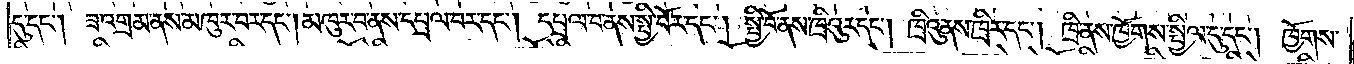དུ་དང༌། ཟ་འགྲམ་ནས་མཁུར་བར་དང༌། མཁུར་བ་ནས་དཔྲལ་བར་དང༌། དཔྲལ་བ་ནས་སྤྱི་བོར་དང༌། སྤྱི་བོ་ནས་ཁྲིའུར་དང༌། ཁྲིའུ་ནས་ཁྲིར་དང༌། ཁྲི་ནས་ཁྱོགས་སྤྱིལ་དུ་དང༌། ཁྱོགས་
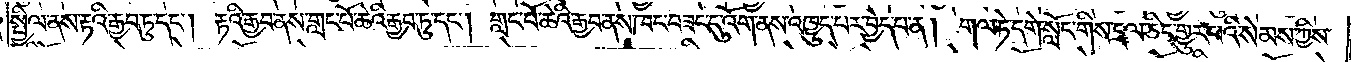སྤྱིལ་ནས་རྟའི་རྒྱབ་ཏུ་དང༌། རྟའི་རྒྱབ་ནས་གླང་པོ་ཆེའི་རྒྱབ་ཏུ་དང༌། གླང་པོ་ཆེའི་རྒྱབ་ནས་ཁང་བཟང་དུ་འོག་ནས་འཁྱུད་པར་བྱེད་པ་ན། གལ་ཏེ་དགེ་སློང་གིས་དྲལ་ཅིང་གྱུར་པའི་སེམས་ཀྱིས་
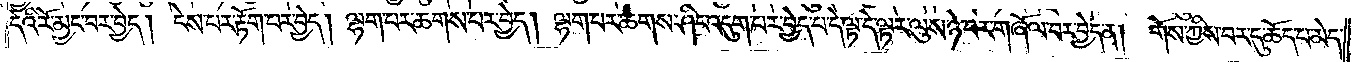དེའི་རོ་མྱང་བར་བྱེད། ངེས་པར་རྟོག་པར་བྱེད། ལྷག་པར་ཆགས་པར་བྱེད། ལྷག་པར་ཆགས་ཤིང་འདུག་པར་བྱེད་པ་དེ་ལྟ་དེ་ལྟར་ལུས་ཉེ་བར་གཞོལ་བར་བྱེད་ན། གོས་ཀྱིས་བར་དུ་ཆོད་པ་མེད་
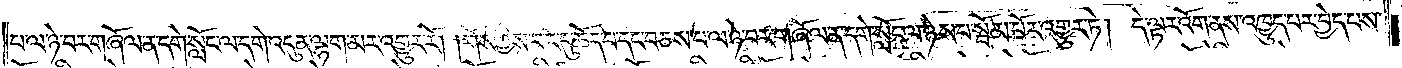པ་ལ་ཉེ་བར་གཞོལ་ན་དགེ་སློང་ལ་དགེ་འདུན་ལྷག་མར་འགྱུར་རོ། །གོས་ཀྱིས་བར་དུ་ཆོད་པ་དང་བཅས་པ་ལ་ཉེ་བར་གཞོལ་ན་དགེ་སློང་ལ་ཉེས་པ་སྦོམ་པོར་འགྱུར་ཏེ། དེ་ལྟར་འོག་ནས་འཁྱུད་པར་བྱེད་པས་
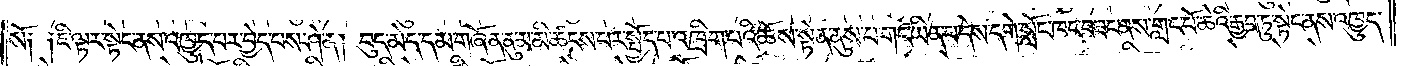སོ༑ ༑ཇི་ལྟར་སྟེང་ནས་འཁྱུད་པར་བྱེད་པས་ཤེ་ན། བུད་མེད་དམ་གཞོན་ནུ་མ་མི་ཚངས་པར་སྤྱོད་པ་འཁྲིག་པའི་ཆོས་སྟོན་ནུས་པ་གང་ཡིན་པ་དེས་དགེ་སློང་ཁང་བཟང་ནས་གླང་པོ་ཆེའི་རྒྱབ་ཏུ་སྟེང་ནས་འཁྱུད་
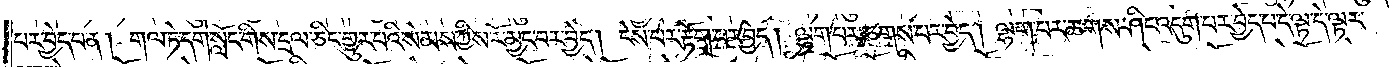པར་བྱེད་པ་ན། གལ་ཏེ་དགེ་སློང་གིས་དྲལ་ཅིང་གྱུར་པའི་སེམས་ཀྱིས་རོ་མྱང་བར་བྱེད། ངེས་པར་རྟོག་པར་བྱེད། ལྷག་པར་ཆགས་པར་བྱེད། ལྷག་པར་ཆགས་ཤིང་འདུག་པར་བྱེད་པ་དེ་ལྟ་དེ་ལྟར་
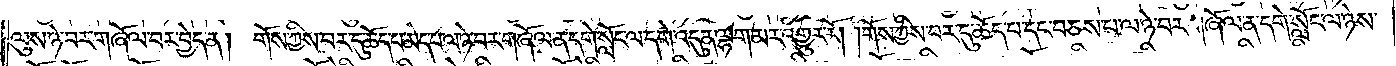ལུས་ཉེ་བར་གཞོལ་བར་བྱེད་ན། གོས་ཀྱིས་བར་དུ་ཆོད་པ་མེད་པ་ལ་ཉེ་བར་གཞོལ་ན་དགེ་སློང་ལ་དགེ་འདུན་ལྷག་མར་འགྱུར་རོ། །གོས་ཀྱིས་བར་དུ་ཆོད་པ་དང་བཅས་པ་ལ་ཉེ་བར་གཞོལ་ན་དགེ་སློང་ལ་ཉེས་
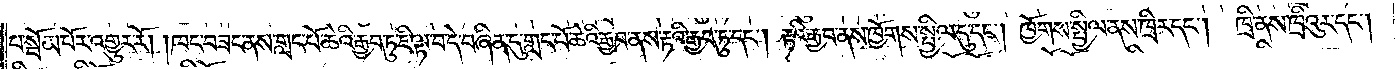པ་སྦོམ་པོར་འགྱུར་རོ། །ཁང་བཟང་ནས་གླང་པོ་ཆེའི་རྒྱབ་ཏུ་ཇི་ལྟ་བ་དེ་བཞིན་དུ་གླང་པོ་ཆེའི་རྒྱབ་ནས་རྟའི་རྒྱབ་ཏུ་དང༌། རྟའི་རྒྱབ་ནས་ཁྱོགས་སྤྱིལ་དུ་དང༌། ཁྱོགས་སྤྱིལ་ནས་ཁྲིར་དང༌། ཁྲི་ནས་ཁྲིའུར་དང༌།
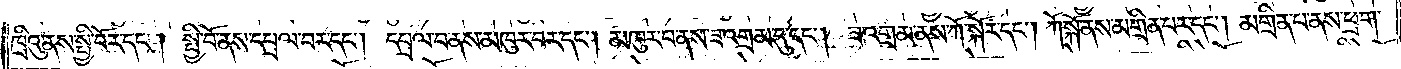ཁྲིའུ་ནས་སྤྱི་བོར་དང༌། སྤྱི་བོ་ནས་དཔྲལ་བར་དང༌། དཔྲལ་བ་ནས་མཁུར་བར་དང༌། མཁུར་བ་ནས་ཟ་འགྲམ་དུ་དང༌། ཟ་འགྲམ་ནས་ཀོ་སྐོར་དང༌། ཀོ་སྐོ་ནས་མགྲིན་པར་དང༌། མགྲིན་པ་ནས་ཕྲག་
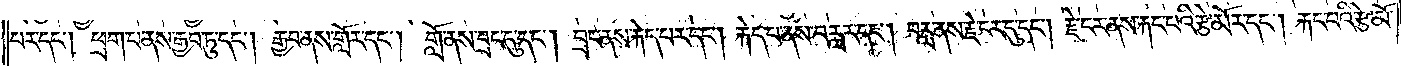པར་དང༌། ཕྲག་པ་ནས་རྒྱབ་ཏུ་དང༌། རྒྱབ་ནས་གློར་དང༌། གློ་ནས་བྲང་དུ་དང༌། བྲང་ནས་རྐེད་པར་དང༌། རྐེད་པ་ནས་བརླར་དང༌། བརླ་ནས་རྗེ་ངར་དུ་དང༌། རྗེ་ངར་ནས་རྐང་པའི་རྩེ་མོར་དང༌། རྐང་པའི་རྩེ་མོ་
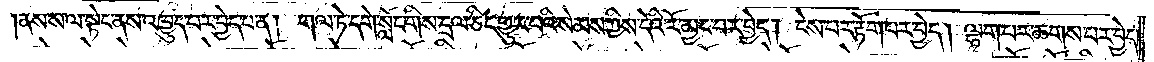།ནས་ས་ལ་སྟེང་ནས་འཁྱུད་པར་བྱེད་པ་ན། གལ་ཏེ་དགེ་སློང་གིས་དྲལ་ཅིང་གྱུར་པའི་སེམས་ཀྱིས་དེའི་རོ་མྱང་བར་བྱེད། ངེས་པར་རྟོག་པར་བྱེད། ལྷག་པར་ཆགས་པར་བྱེད༎
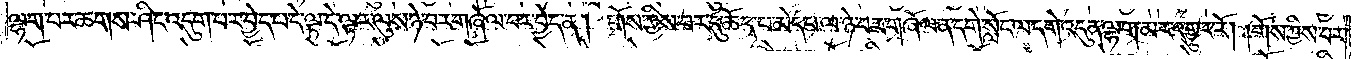ལྷག་པར་ཆགས་ཤིང་འདུག་པར་བྱེད་པ་དེ་ལྟ་དེ་ལྟར་ལུས་ཉེ་བར་གཞོལ་བར་བྱེད་ན། གོས་ཀྱིས་བར་དུ་ཆོད་པ་མེད་པ་ལ་ཉེ་བར་གཞོལ་ན་དགེ་སློང་ལ་དགེ་འདུན་ལྷག་མར་འགྱུར་རོ། །གོས་ཀྱིས་བར་
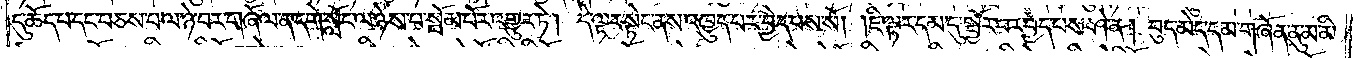དུ་ཆོད་པ་དང་བཅས་པ་ལ་ཉེ་བར་གཞོལ་ན་དགེ་སློང་ལ་ཉེས་པ་སྦོམ་པོར་འགྱུར་ཏེ། དེ་ལྟར་སྟེང་ནས་འཁྱུད་པར་བྱེད་པས་སོ། །ཇི་ལྟར་དམ་དུ་སྦྱོར་བར་བྱེད་པས་ཤེ་ན། བུད་མེད་དམ་གཞོན་ནུ་མ་མི་
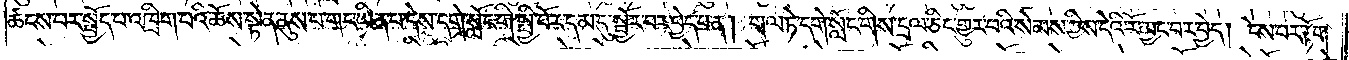ཚངས་པར་སྤྱོད་པ་འཁྲིག་པའི་ཆོས་སྟོན་ནུས་པ་གང་ཡིན་པ་དེས་དགེ་སློང་གི་སྤྱི་བོར་དམ་དུ་སྦྱོར་བར་བྱེད་པ་ན། གལ་ཏེ་དགེ་སློང་གིས་དྲལ་ཅིང་གྱུར་པའི་སེམས་ཀྱིས་དེའི་རོ་མྱང་བར་བྱེད། ངེས་པར་རྟོག་
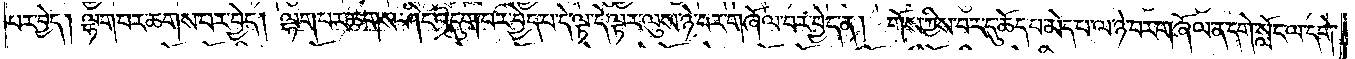པར་བྱེད། ལྷག་པར་ཆགས་པར་བྱེད། ལྷག་པར་ཆགས་ཤིང་འདུག་པར་བྱེད་པ་དེ་ལྟ་དེ་ལྟར་ལུས་ཉེ་བར་གཞོལ་བར་བྱེད་ན། གོས་ཀྱིས་བར་དུ་ཆོད་པ་མེད་པ་ལ་ཉེ་བར་གཞོལ་ན་དགེ་སློང་ལ་དགེ་
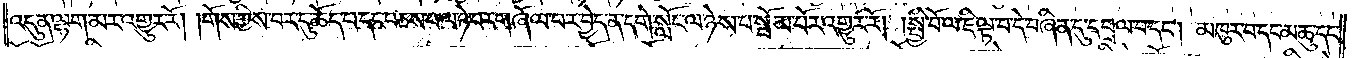འདུན་ལྷག་མར་འགྱུར་རོ། །གོས་ཀྱིས་བར་དུ་ཆོད་པ་དང་བཅས་པ་ལ་ཉེ་བར་གཞོལ་བར་བྱེད་ན་དགེ་སློང་ལ་ཉེས་པ་སྦོམ་པོར་འགྱུར་རོ། །སྤྱི་བོ་ལ་ཇི་ལྟ་བ་དེ་བཞིན་དུ་དཔྲལ་བ་དང༌། མཁུར་བ་དང་མཆུ་དང་
